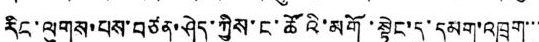རིང་ལུགས་པས་བཙན་ཤེད་ཀྱིས་ང་ཚོའི་མགོ་སྟེང་དུ་དམག་འཁྲུག་་་
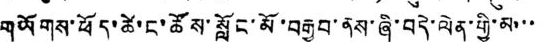གཡོགས་ཕོད་ཚེ་ང་ཚོས་སློང་མོ་བརྒྱབ་ནས་ཞི་བདེ་ལེན་གྱི་མ་་་
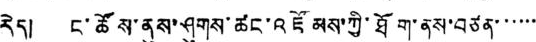རེད། ང་ཚོས་ནུས་ཤུགས་ཚང་འཛོམས་ཀྱི་ཐོག་ནས་བཙན་་་་་་
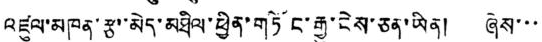འཛུལ་མཁན་རྩ་མེད་མཐིལ་ཕྱིན་གཏོང་རྒྱུ་ངེས་ཅན་ཡིན། ཞེས་་་
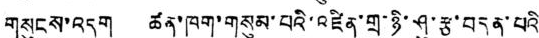གསུངས་འདུག ཚན་ཁག་གསུམ་པའི་འཛིན་གྲ་ཉི་ཤུ་རྩ་བདུན་པའི
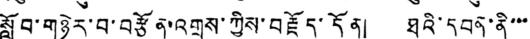སློབ་གཉེར་བ་བརྩོན་འགྲུས་ཀྱིས་བརྗོད་དོན། ཐའི་དབན་ནི་་་
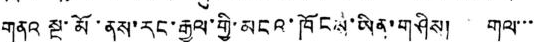གནའ སྔ་མོ་ནས་རང་རྒྱལ་གྱི་མངའ་ཁོངས་ཡིན་གཤིས། གལ་་་
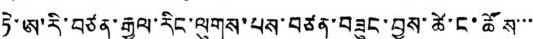ཏེ་ཨ་རི་བཙན་རྒྱལ་རིང་ལུགས་པས་བཙན་བཟུང་བྱས་ཚེ་ང་ཚོས་་་
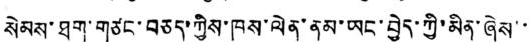སེམས་ཐག་གཙང་བཅད་ཀྱིས་ཁས་ལེན་ནམ་ཡང་བྱེད་ཀྱི་མིན་ཞེས་་་
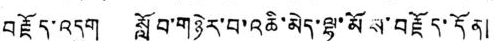བརྗོད་འདུག སློབ་གཉེར་བ་འཆི་མེད་ལྷ་མོས་བརྗོད་དོན།
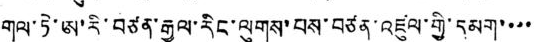གལ་ཏེ་ཨ་རི་བཙན་རྒྱལ་རིང་ལུགས་པས་བཙན་འཛུལ་གྱི་དམག་་་་
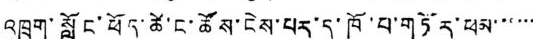འཁྲུག་སློང་ཕོད་ཚེ་ང་ཚོས་ངེས་པར་དུ་ཁོ་བ་གཏོར་ཕམ་་་་་་
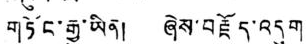གཏོང་རྒྱུ་ཡིན། ཞེས་བརྗོད་འདུག
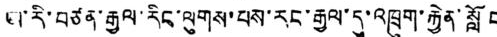ཨ་རི་བཙན་རྒྱལ་རིང་ལུས་པས་རང་རྒྱལ་དུ་འཁྲུག་རྐྱེན་སློང
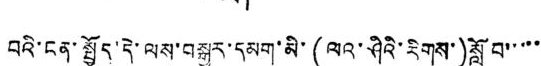བའི་ངན་སྤྱོད་དེ་ལས་བསྒྱུར་དམག་མི་(ལའ་ཤིའི་རིགས་)སློབ་་་་་
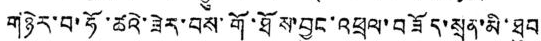གཉེར་བ་ཧོ་ཚའེ་ཟེར་བས་གོ་ཐོས་བྱུང་འཕྲལ་བཟོད་སྲན་མི་ཐབ
